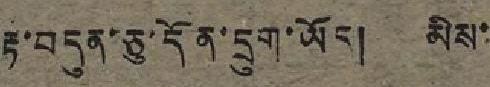རྟ་བདུན་ཅུ་དོན་དྲུག་ཡོད། མིས་
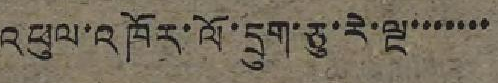འཕུལ་འཁོར་ལོ་དྲུག་ཅུ་རེ་ལྔ་་་་་་་
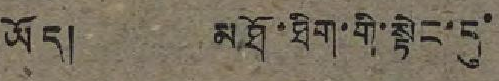ཡོད། མཐོ་ཐིག་གི་སྟེང་དུ་
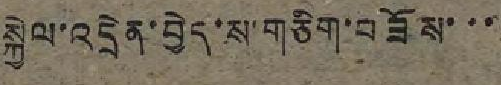སྐྱེལ་འདྲེན་བྱེད་ས་གཅིག་བཟོས་་་
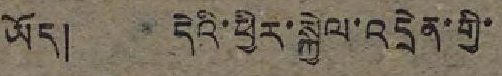ཡོད། དེའི་ཕྱིར་སྐྱེལ་འདྲེན་གྱི་
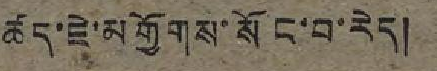ཚད་ཇེ་མགྱོགས་སོང་བ་རེད།
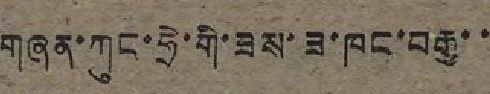གཞན་ཀུང་ཧྲེ་གི་ཟས་ཟ་ཁང་བརྒྱ་་
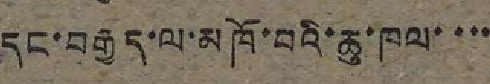དང་བརྒྱད་ལ་མཁོ་བའི་ཆུ་ཁལ་་་་
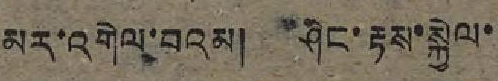མར་འགེལ་བའམ། ཤིང་རྟས་སྐྱེལ་
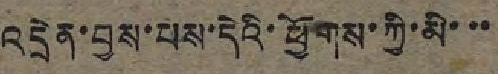འདྲེན་བྱས་པས་དེའི་ཕྱོགས་ཀྱི་མི་་་
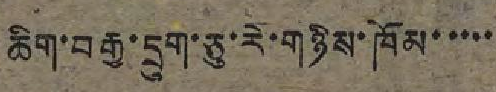ཆིག་བརྒྱ་དྲུག་ཅུ་རེ་གཉིས་ཁོམ་་་་་
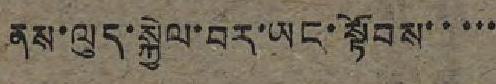ནས་ལུད་སྐྱེལ་བར་ཡང་སྟོབས་་་་་
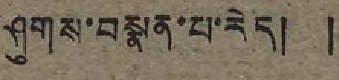ཤུགས་བསྣན་པ་རེད། །
